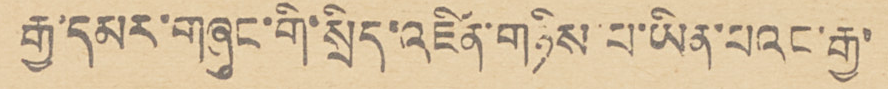རྒྱ་དམར་གཞུང་གི་སྲིད་འཛིན་གཉིས་པ་ཡིན་པའང་རྒྱ་
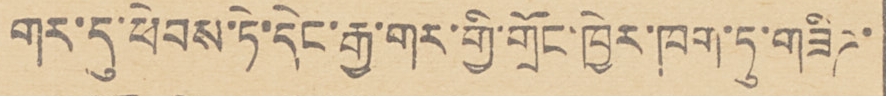གར་དུ་ཕེབས་ཏེ་དེང་རྒྱ་གར་གྱི་གྲོང་ཁྱེར་ཁག་ཏུ་གཟིཌ་
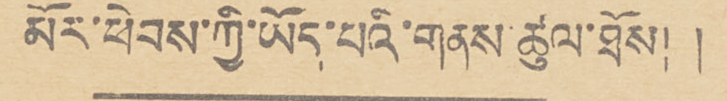མོར་ཕེབས་ཀྱི་ཡོད་པའི་གནས་ཚུལ་ཐོས། །
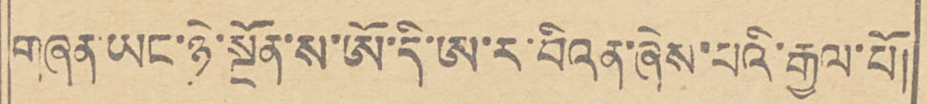གཞན་ཡང་ཉེ་སྔོན་ས་ཨོ་དི་ཨ་ར་བིའན་ཞེས་པའི་རྒྱལ་པོ།
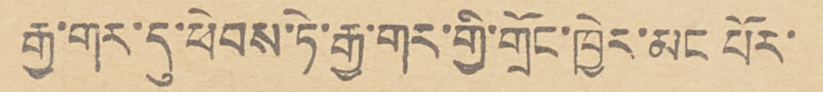རྒྱ་གར་དུ་ཕེབས་ཏེ་རྒྱ་གར་གྱི་གྲོང་ཁྱེར་མང པོར་
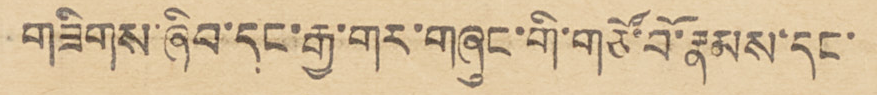གཟིགས་ཞིབ་དང་རྒྱ་གར་གཞུང་གི་གཙོ་བོ་རྣམས་དང་
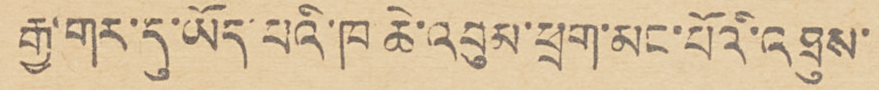རྒྱ་གར་དུ་ཡོད་པའི་ཁ ཆེ་འབུམ་ཕྲག་མང་པོའི་འཐུས་
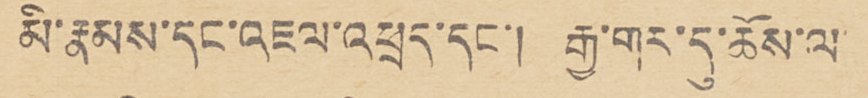མི་རྣམས་དང་འཇལ་འཕྲད་དང་། རྒྱ་གར་དུ་ཆོས་ལ་
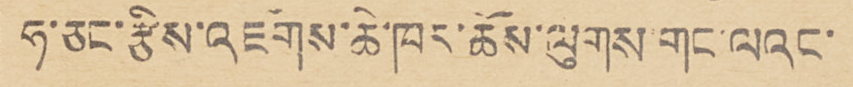ཧ་ཅང་རྩིས་འཇོགས་ཆེ་ཁར་ཆོས་ལུགས་གང་ལའང་
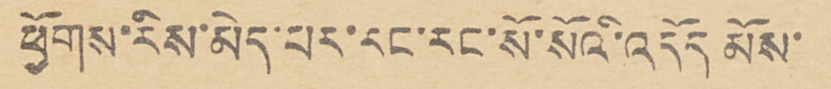ཕྱོགས་རིས་མེད་པར་རང་རང་སོ་སོའི་འདོད མོས་
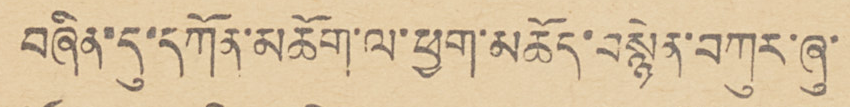བཞིན་དུ་དཀོན་མཆོག་ལ་ཕྱག་མཆོད་བསྙེན་བཀུར་ཞུ་
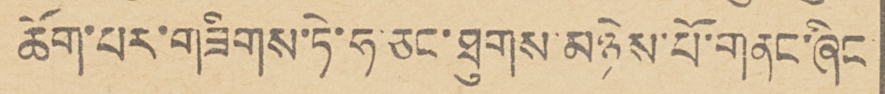ཆོག་པར་གཟིགས་ཏེ་ཧ་ཅང་ཐུགས་མཉེས་པོ་གནང་ཞིང
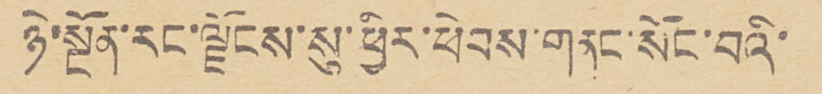ཉེ་སྔོན་རང་ལྗོངས་སུ་ཕྱིར་ཕེབས་གནང་སོང་བའི་
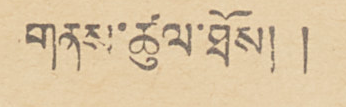གནས་ཚུལ་ཐོས། །
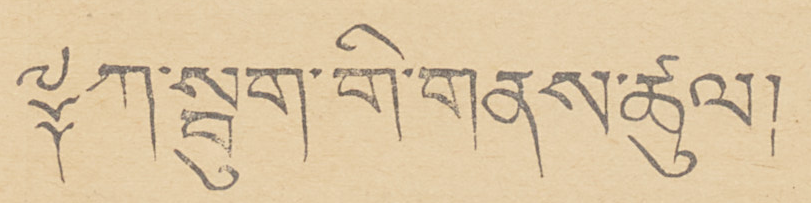༈ ཀ་སྦུག་གི་གནས་ཚུལ།།
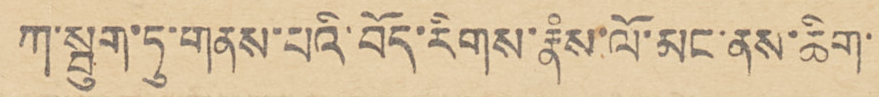ཀ་སྦུག་ཏུ་གནས་པའི་བོད་རིགས་རྣཾས་ལོ་མང་ནས་ཆིག་
